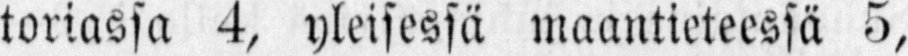toriassa 4, yleisessä maantieteessä 5,
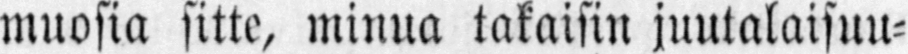muosia sitte, minua takaisin juutalaisuu-
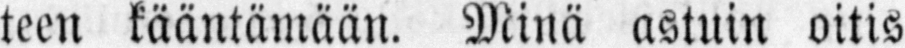teen kääntämään. Minä astuin oitis
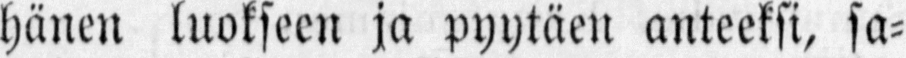hänen luokseen ja pyytäen anteeksi, sa-
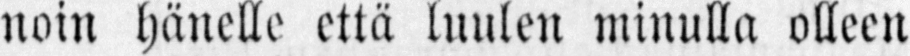noin hänelle että luulen minulla olleen
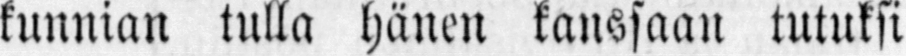kunnian tulla hänen kanssaan tulliksi
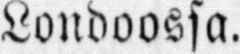Londoossa.
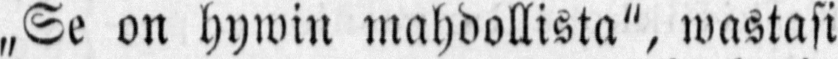„Se on hywin mahdollista", wastasi
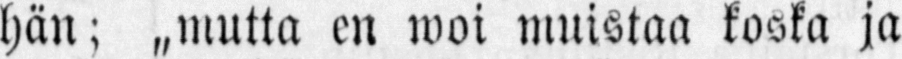hän; „mutta en woi muistaa koska ja
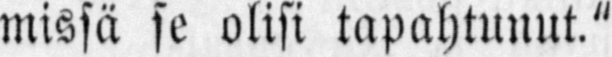missä se olisi tapahtunut."
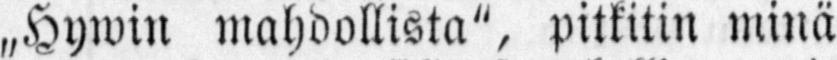„Hywin mahdollista", pitkitin minä
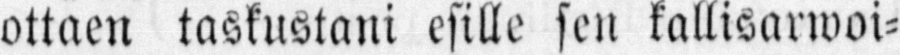ottaen taskustani esille sen kallisarwoi-
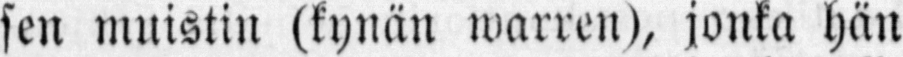sen muistin (kynän warren), jonka hän
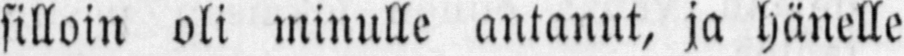silloin oli minulle antanut, ja hänelle
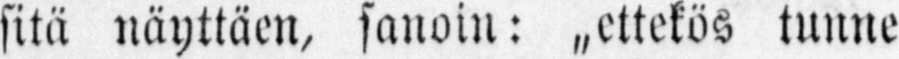sitä näyttäen, sanoin: „ettekös tunne
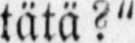tätä?"
